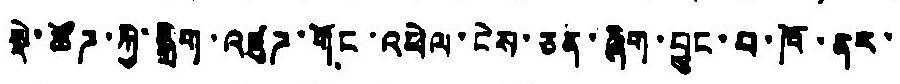སྡེ་ཚོཌ་ཀྱི་སྒྲིག་འཛུཌ་གོང་འཕེལ་ངེས་ཅན་ཞིག་བྱུང་བ་ཁོ་ནར་
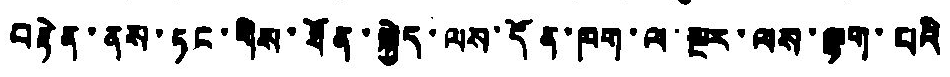བརྟེན་ནས་ཏང་གིས་ཐོན་སྐྱེད་ལས་དོན་ཁག་ལ་སྔར་ལས་ལྷག་པའི
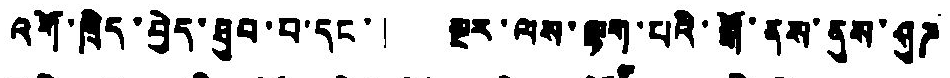འགོ་ཁྲིད་བྱེད་ཐུབ་པ་དང་། སྔར་ལས་ལྷག་པའི་སྒོ་ནས་ནུས་ཤུཌ
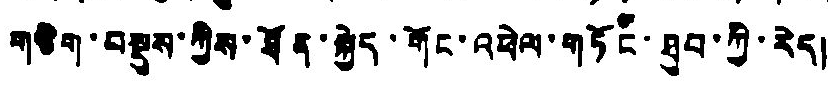གཅིག་བསྡུས་ཀྱིས་ཐོན་སྐྱེད་གོང་འཕེལ་གཏོང་ཐུབ་ཀྱི་རེད།
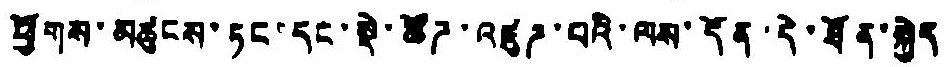ཕྱོགས་མཚུངས་ཏང་དང་སྡེ་ཚོཌ་འཛུཌ་པའི་ལས་དོན་དེ་ཐོན་སྐྱེད
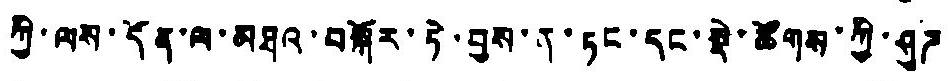ཀྱི་ལས་དོན་ལ་མཐའ་བསྐོར་ཏེ་བྱས་ན་ཏང་དང་སྡེ་ཚོགས་ཀྱི་ཤུཌ
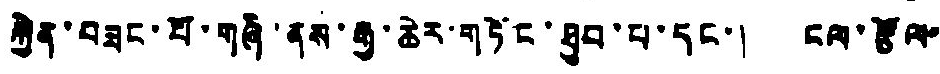རྐྱེན་བཟང་པོ་གཞི་ནས་རྒྱ་ཆེར་གཏོང་ཐུབ་པ་དང་། ངལ་རྩོལ་
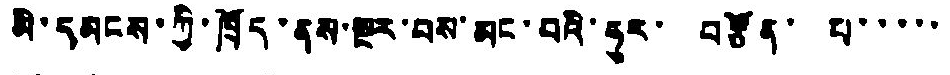མི་དམངས་ཀྱི་ཁྲོད་ནས་སྔར་བས་མང་བའི་ཧུར་ བརྩོན་ པ་་་་་
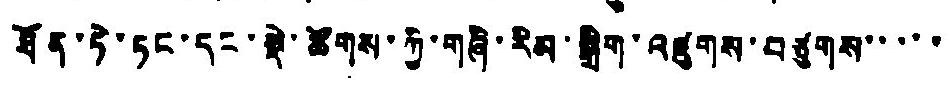ཐོན་ཏེ་ཏང་དང་སྡེ་ཚོགས་ཀྱི་གཞི་རིམ་སྒྲིག་འཛུགས་བཙུགས་་་་་
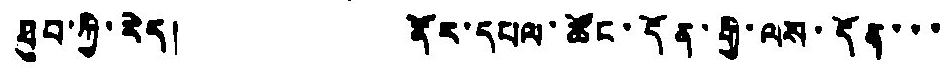ཐུབ་ཀྱི་རེད། ནོར་དཔལ་ཚོང་དོན་གྱི་ལས་དོན་་་
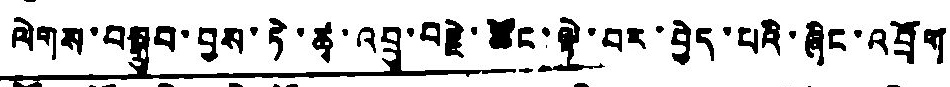ལེགས་བསྒྲུབ་བྱས་ཏེ་ཚྭ་འབྲུ་བརྗེ་ཚོང་ལྟེ་བར་བྱེད་པའི་ཞིང་འབྲོག
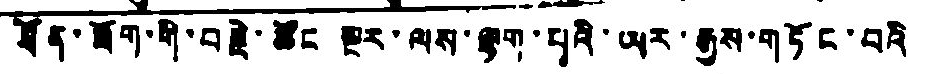ཐོན་ཟོག་གི་བརྗེ་ཚོང སྔར་ལས་ལྷག་པའི་ཡར་རྒྱས་གཏོང་བའི་
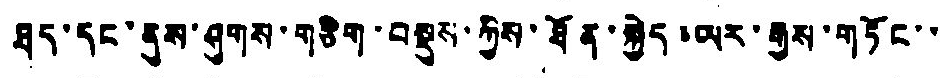ཐད་དང་ནུས་ཤུགས་གཅིག་བསྡུས་ཀྱིས་ཐོན་སྐྱེད་ཡར་རྒྱས་གཏོང་་
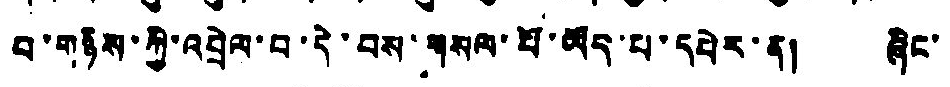བ་གཉིས་ཀྱི་འབྲེལ་བ་དེ་བས་གསལ་པོ་ཡོད་པ་དཔེར་ན། ཞིང་
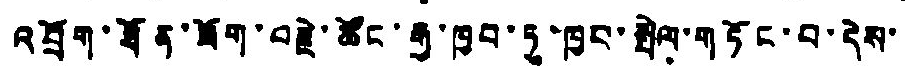འབྲོག་ཐོན་ཟོག་བརྗེ་ཚོང་རྒྱ་ཁྱབ་ཏུ་ཁྱབ་སྤེལ་གཏོང་བ་དེས་
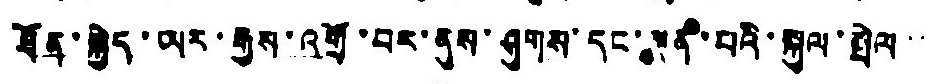ཐོན་སྐྱེད་ཡར་རྒྱས་འགྲོ་བར་ནུས་ཤུགས་དང་ལྡན་པའི་སྐུལ་སྤེལ་་་
